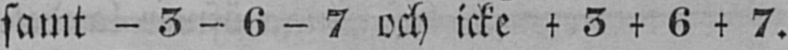samt - 3 - 6 - 7 och icke + 3 + 6 + 7.
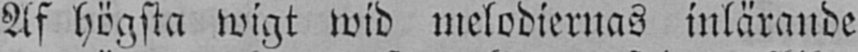Af högsta wigt wid melodiernas inlärande
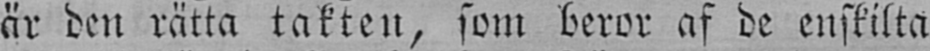är den rätta takten, som beror af de enskilta
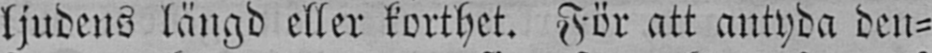ljudens längd eller korthet. För att antyda den-
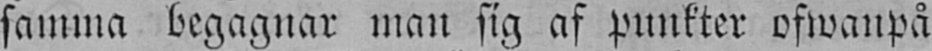samma begagnar man sig af punkter ofwanpå
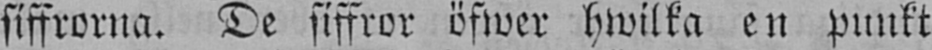siffrorna. De siffror öfwer hwilka en punkt
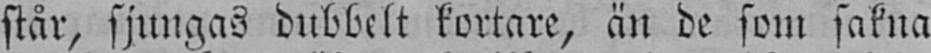står, sjungas dubbelt kortare, än de som sakna
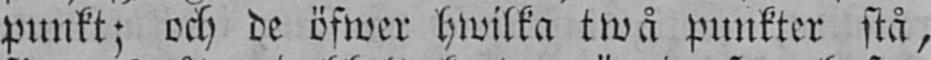punkt; och de öfwer hwilka twå punkter stå,
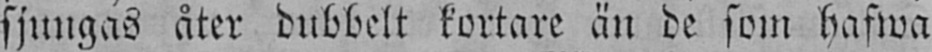sjungas åter dubbelt kortare än de som hafwa
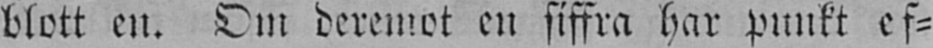blott en. Om deremot en siffra har punkt ef-
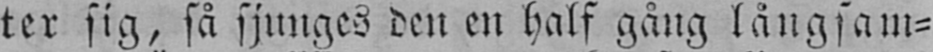ter sig, så sjunges den en half gång långsam-
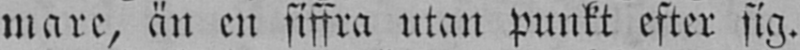mare, än en siffra utan punkt efter sig.
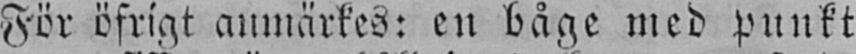För öfrigt anmärkes: en båge med punkt
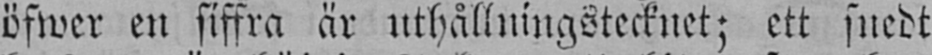öfwer en siffra är uthållningstecknet; ett snedt
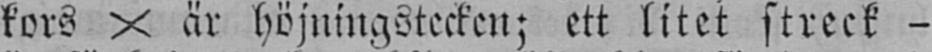kors x är höjningstecken; ett litet streck -
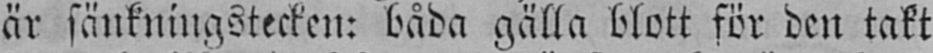är sänkningstecken: båda gälla blott för den takt
